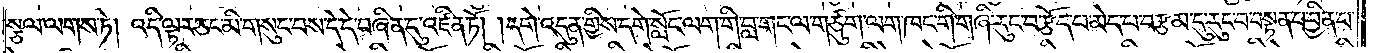སྩལ་ལགས་ཏེ། འདི་ལྟར་ཅང་མི་གསུང་བས་དེ་དེ་བཞིན་དུ་འཛིན་ཏོ། །དགེ་འདུན་གྱིས་དགེ་སློང་ལག་གི་བླ་གང་ལ་གཙུག་ལག་ཁང་གི་གཞི་རུང་བ་རྩོད་པ་མེད་པ་བརྩམ་དུ་རུང་བ་བསྟན་པ་བྱིན་པ་
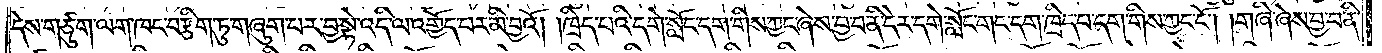དེས་གཙུག་ལག་ཁང་བརྩིག་ཏུ་གཞུག་པར་བྱ་སྟེ་འདི་ལ་འགྱོད་པར་མི་བྱའོ། །ཁྲིད་པའི་དགེ་སློང་དག་གིས་ཀྱང་ཞེས་བྱ་བ་ནི་དེར་དགེ་སློང་གང་དག་ཁྲིད་པ་དག་གིས་ཀྱང་ངོ༌། །གཞི་ཞེས་བྱ་བ་ནི་
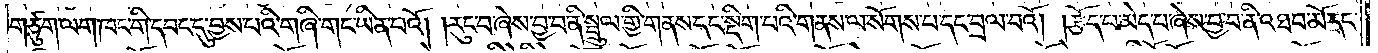གཙུག་ལག་ཁང་གི་དབང་དུ་བྱས་པའི་གཞི་གང་ཡིན་པའོ། །རུང་བ་ཞེས་བྱ་བ་ནི་སྦྲུལ་གྱི་གནས་དང་སྡིག་པའི་གནས་ལ་སོགས་པ་དང་བྲལ་བའོ། །རྩོད་པ་མེད་པ་ཞེས་བྱ་བ་ནི་འཐབ་མོ་དང་
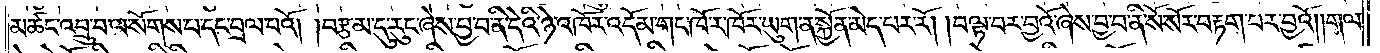མཚང་འབྲུ་བ་ལ་སོགས་པ་དང་བྲལ་པའོ། །བརྩམ་དུ་རུང་ཞེས་བྱ་བ་ནི་དེའི་ཉེ་འཁོར་འདོམ་གང་ཁོ་ར་ཁོར་ཡུག་ན་སྐྱོན་མེད་པར་རོ། །བལྟ་བར་བྱའོ་ཞེས་བྱ་བ་ནི་སོ་སོར་བརྟག་པར་བྱའོ། །གལ་
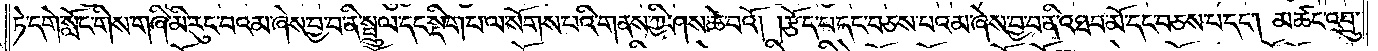ཏེ་དགེ་སློང་གིས་གཞི་མི་རུང་བའམ་ཞེས་བྱ་བ་ནི་སྦྲུལ་དང་སྡིག་པ་ལ་སོགས་པའི་གནས་ཀྱི་ཤས་ཆེ་བའོ། །རྩོད་པ་དང་བཅས་པའམ་ཞེས་བྱ་བ་ནི་འཐབ་མོ་དང་བཅས་པ་དང༌། མཚང་འབྲུ་
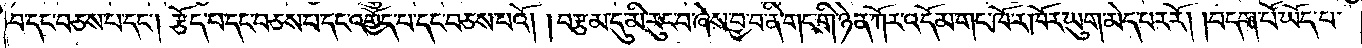བ་དང་བཅས་པ་དང༌། རྩོད་པ་དང་བཅས་པ་དང་འགྱོད་པ་དང་བཅས་པའོ། །བརྩམ་དུ་མི་རུང་བ་ཞེས་བྱ་བ་ནི་གང་གི་ཉེན་ཀོར་འདོམ་གང་ཁོ་ར་ཁོར་ཡུག་མེད་པར་རོ། །བདག་པོ་ཡོད་པ་
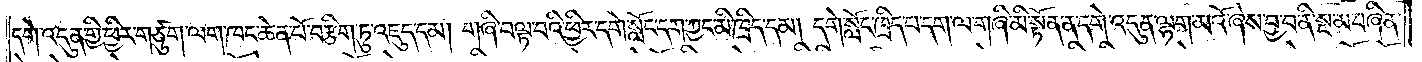དགེ་འདུན་གྱི་ཕྱིར་གཙུག་ལག་ཁང་ཆེན་པོ་བརྩིག་ཏུ་འཇུད་དམ། གཞི་བལྟ་བའི་ཕྱིར་དགེ་སློང་དག་ཀྱང་མི་ཁྲིད་དམ། དགེ་སློང་ཁྲིད་པ་དག་ལ་གཞི་མི་སྟོན་ན་དགེ་འདུན་ལྷག་མའོ་ཞེས་བྱ་བ་ནི་སྔ་མ་བཞིན་
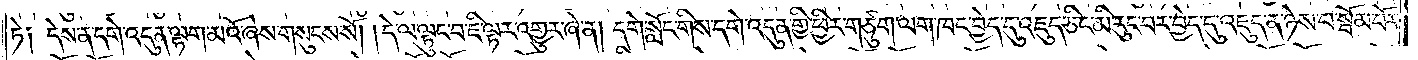ཏེ༑ དེས་ན་དགེ་འདུན་ལྷག་མའོ་ཞེས་གསུངས་སོ། །དེ་ལ་ལྟུང་བ་ཇི་ལྟར་འགྱུར་ཞེ་ན། དགེ་སློང་གིས་དགེ་འདུན་གྱི་ཕྱིར་གཙུག་ལག་ཁང་བྱེད་དུ་འཇུད་ཅིང་མི་རུང་བར་བྱེད་དུ་འཇུད་ན་ཉེས་པ་སྦོམ་པོར་
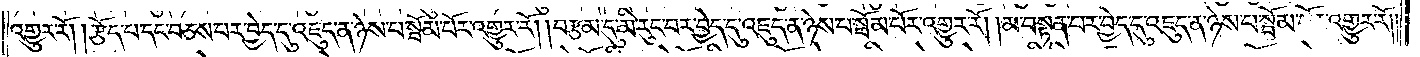འགྱུར་རོ། །རྩོད་པ་དང་བཅས་པར་བྱེད་དུ་འཇུད་ན་ཉེས་པ་སྦོམ་པོར་འགྱུར་རོ། །བརྩམ་དུ་མི་རུང་བར་བྱེད་དུ་འཇུད་ན་ཉེས་པ་སྦོམ་པོར་འགྱུར་རོ། །མ་བསྟན་པར་བྱེད་དུ་འཇུད་ན་ཉེས་པ་སྦོམ་པོར་འགྱུར་རོ༎
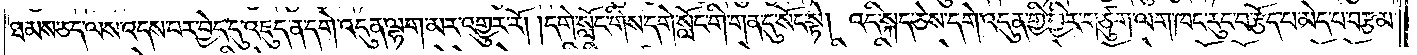ཐམས་ཅད་ལས་འདས་པར་བྱེད་དུ་འཇུད་ན་དགེ་འདུན་ལྷག་མར་འགྱུར་རོ། །དགེ་སློང་གིས་དགེ་སློང་གི་གན་དུ་སོང་སྟེ། འདི་སྐད་ཅེས་དགེ་འདུན་གྱི་ཕྱིར་གཙུག་ལག་ཁང་རུང་བ་རྩོད་པ་མེད་པ་བརྩམ་
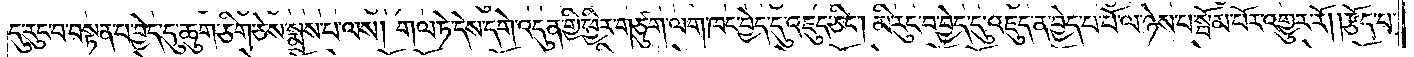དུ་རུང་བ་བསྟན་པ་བྱེད་དུ་ཆུག་ཅིག་ཅེས་སྨྲས་པ་ལས། གལ་ཏེ་དེས་དགེ་འདུན་གྱི་ཕྱིར་གཙུག་ལག་ཁང་བྱེད་དུ་འཇུད་ཅིང༌། མི་རུང་བ་བྱེད་དུ་འཇུད་ན་བྱེད་པ་པོ་ལ་ཉེས་པ་སྦོམ་པོར་འགྱུར་རོ། །རྩོད་པ་
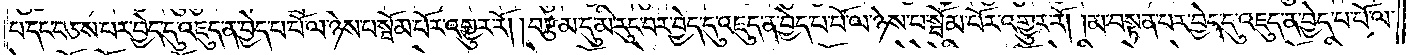པ་དང་བཅས་པར་བྱེད་དུ་འཇུད་ན་བྱེད་པ་པོ་ལ་ཉེས་པ་སྦོམ་པོར་འགྱུར་རོ། །བརྩམ་དུ་མི་རུང་བར་བྱེད་དུ་འཇུད་ན་བྱེད་པ་པོ་ལ་ཉེས་པ་སྦོམ་པོར་འགྱུར་རོ། །མ་བསྟན་པར་བྱེད་དུ་འཇུད་ན་བྱེད་པ་པོ་ལ་
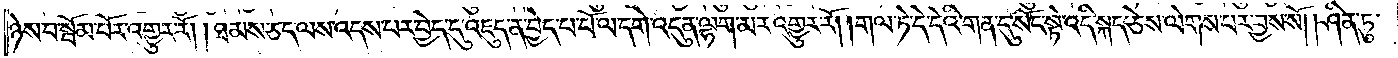ཉེས་པ་སྦོམ་པོར་འགྱུར་རོ། །ཐམས་ཅད་ལས་འདས་པར་བྱེད་དུ་འཇུད་ན་བྱེད་པ་པོ་ལ་དགེ་འདུན་ལྷག་མར་འགྱུར་རོ། །གལ་ཏེ་དེ་དེའི་གན་དུ་སོང་སྟེ་འདི་སྐད་ཅེས་ལེགས་པར་བྱས་སོ། །ཤིན་ཏུ་
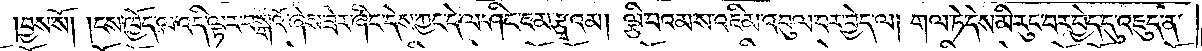བྱས་སོ། །ངས་ཁྱོད་ལ་འདི་ལྟར་བསྒོའོ་ཞེས་ཟེར་ཞིང་དེས་ཀྱང་དེ་ལ་ཤིང་ངམ་རྩྭའམ། ལྕི་བའམ་ས་འཇིམ་འབུལ་བར་བྱེད་ལ། གལ་ཏེ་དེས་མི་རུང་བར་བྱེད་དུ་འཇུད་ན་
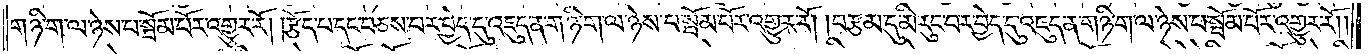གཉི་ག་ལ་ཉེས་པ་སྦོམ་པོར་འགྱུར་རོ། །རྩོད་པ་དང་བཅས་པར་བྱེད་དུ་འཇུད་ན་གཉི་ག་ལ་ཉེས་པ་སྦོམ་པོར་འགྱུར་རོ། །བརྩམ་དུ་མི་རུང་བར་བྱེད་དུ་འཇུད་ན་གཉི་ག་ལ་ཉེས་པ་སྦོམ་པོར་འགྱུར་རོ༎
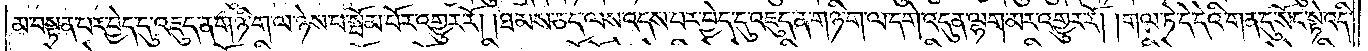མ་བསྟན་པར་བྱེད་དུ་འཇུད་ན་གཉི་ག་ལ་ཉེས་པ་སྦོམ་པོར་འགྱུར་རོ། །ཐམས་ཅད་ལས་འདས་པར་བྱེད་དུ་འཇུད་ན་གཉི་ག་ལ་དགེ་འདུན་ལྷག་མར་འགྱུར་རོ། །གལ་ཏེ་དེ་དེའི་གན་དུ་སོང་སྟེ་འདི་
